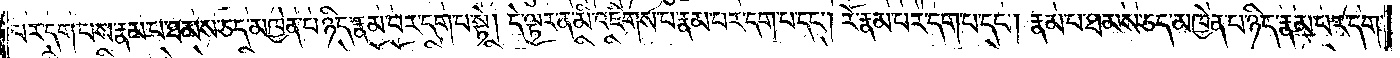པར་དག་པས་རྣམ་པ་ཐམས་ཅད་མཁྱེན་པ་ཉིད་རྣམ་པར་དག་པ་སྟེ། དེ་ལྟར་ན་མི་འཇིགས་པ་རྣམ་པར་དག་པ་དང༌། རོ་རྣམ་པར་དག་པ་དང༌། རྣམ་པ་ཐམས་ཅད་མཁྱེན་པ་ཉིད་རྣམ་པར་དག་
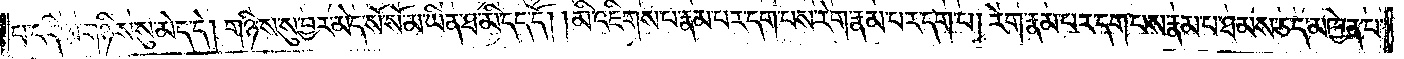པ་འདི་ལ་གཉིས་སུ་མེད་དེ། གཉིས་སུ་བྱར་མེད་སོ་སོ་མ་ཡིན་ཐ་མི་དད་དོ། །མི་འཇིགས་པ་རྣམ་པར་དག་པས་རེག་རྣམ་པར་དག་པ། རེག་རྣམ་པར་དག་པས་རྣམ་པ་ཐམས་ཅད་མཁྱེན་པ་
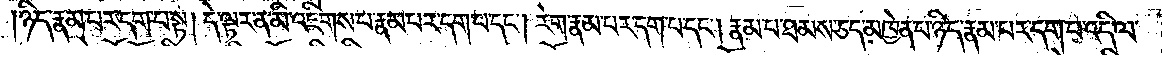ཉིད་རྣམ་པར་དག་པ་སྟེ། དེ་ལྟར་ན་མི་འཇིགས་པ་རྣམ་པར་དག་པ་དང༌། རེག་རྣམ་པར་དག་པ་དང༌། རྣམ་པ་ཐམས་ཅད་མཁྱེན་པ་ཉིད་རྣམ་པར་དག་པ་འདི་ལ་
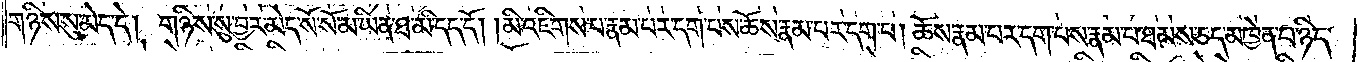གཉིས་སུ་མེད་དེ། གཉིས་སུ་བྱར་མེད་སོ་སོ་མ་ཡིན་ཐ་མ་དད་དོ། །མི་འཇིགས་པ་རྣམ་པར་དག་པས་ཆོས་རྣམ་པར་དག་པ། ཆོས་རྣམ་པར་དག་པས་རྣམ་པ་ཐམས་ཅད་མཁྱེན་པ་ཉིད་
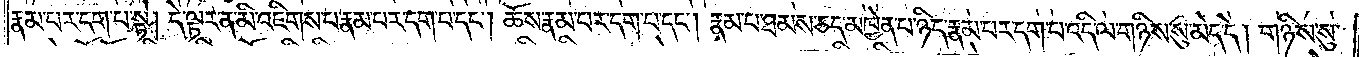རྣམ་པར་དག་པ་སྟེ། དེ་ལྟར་ན་མི་འཇིགས་པ་རྣམ་པར་དག་པ་དང༌། ཆོས་རྣམ་པར་དག་པ་དང༌། རྣམ་པ་ཐམས་ཅད་མཁྱེན་པ་ཉིད་རྣམ་པར་དག་པ་འདི་ལ་གཉིས་སུ་མེད་དེ། གཉིས་སུ་
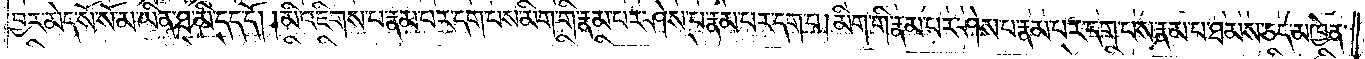བྱར་མེད་སོ་སོ་མ་ཡིན་ཐ་མི་དད་དོ། །མི་འཇིགས་པ་རྣམ་པར་དག་པས་མིག་གི་རྣམ་པར་ཤེས་པ་རྣམ་པར་དག་པ། མིག་གི་རྣམ་པར་ཤེས་པ་རྣམ་པར་དག་པས་རྣམ་པ་ཐམས་ཅད་མཁྱེན་
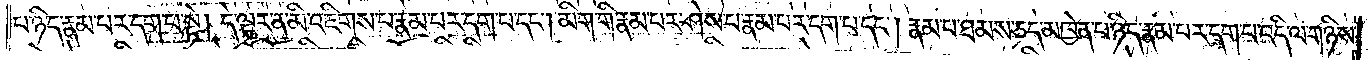པ་ཉིད་རྣམ་པར་དག་པ་སྟེ། དེ་ལྟར་ན་མི་འཇིགས་པ་རྣམ་པར་དག་པ་དང༌། མིག་གི་རྣམ་པར་ཤེས་པ་རྣམ་པར་དག་པ་དང༌། རྣམ་པ་ཐམས་ཅད་མཁྱེན་པ་ཉིད་རྣམ་པར་དག་པ་འདི་ལ་གཉིས་
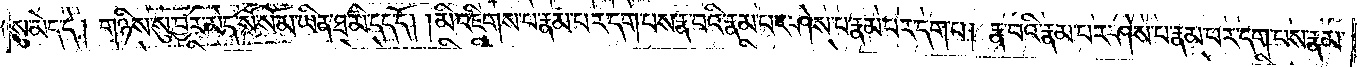སུ་མེད་དེ། གཉིས་སུ་བྱར་མེད་སོ་སོ་མ་ཡིན་ཐ་མི་དད་དོ། །མི་འཇིགས་པ་རྣམ་པར་དག་པས་རྣ་བའི་རྣམ་པར་ཤེས་པ་རྣམ་པར་དག་པ། རྣ་བའི་རྣམ་པར་ཤེས་པ་རྣམ་པར་དག་པས་རྣམ་
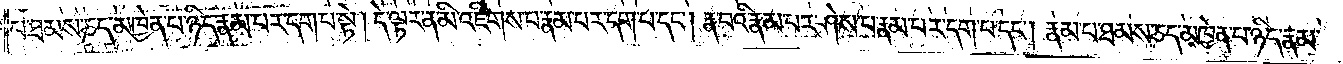པ་ཐམས་ཅད་མཁྱེན་པ་ཉིད་རྣམ་པར་དག་པ་སྟེ། དེ་ལྟར་ན་མི་འཇིགས་པ་རྣམ་པར་དག་པ་དང༌། རྣ་བའི་རྣམ་པར་ཤེས་པ་རྣམ་པར་དག་པ་དང༌། རྣམ་པ་ཐམས་ཅད་མཁྱེན་པ་ཉིད་རྣམ་
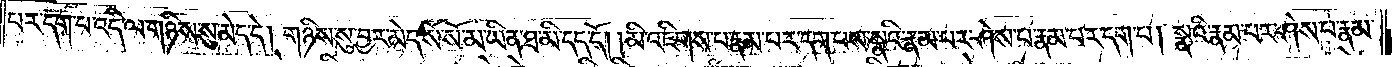པར་དག་པ་འདི་ལ་གཉིས་སུ་མེད་དེ། གཉིས་སུ་བྱར་མེད་སོ་སོ་མ་ཡིན་ཐ་མི་དད་དོ། །མི་འཇིགས་པ་རྣམ་པར་དག་པས་སྣའི་རྣམ་པར་ཤེས་པ་རྣམ་པར་དག་པ། སྣའི་རྣམ་པར་ཤེས་པ་རྣམ་
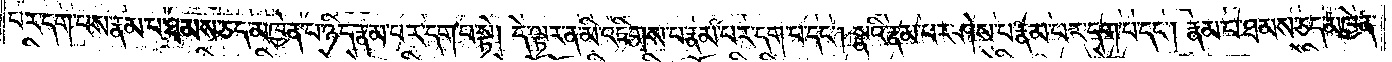པར་དག་པས་རྣམ་པ་ཐམས་ཅད་མཁྱེན་པ་ཉིད་རྣམ་པར་དག་པ་སྟེ། དེ་ལྟར་ན་མི་འཇིགས་པ་རྣམ་པར་དག་པ་དང༌། སྣའི་རྣམ་པར་ཤེས་པ་རྣམ་པར་དག་པ་དང༌། རྣམ་པ་ཐམས་ཅད་མཁྱེན་
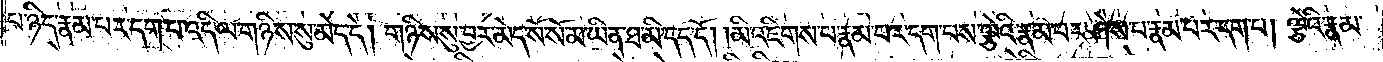པ་ཉིད་རྣམ་པར་དག་པ་འདི་ལ་གཉིས་སུ་མེད་དེ། གཉིས་སུ་བྱར་མེད་སོ་སོ་མ་ཡིན་ཐ་མི་དད་དོ། །མི་འཇིགས་པ་རྣམ་པར་དག་པས་ལྕེའི་རྣམ་པར་ཤེས་པ་རྣམ་པར་དག་པ། ལྕེའི་རྣམ་
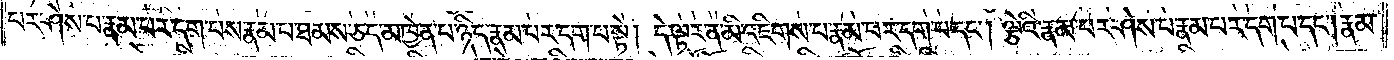པར་ཤེས་པ་རྣམ་པར་དག་པས་རྣམ་པ་ཐམས་ཅད་མཁྱེན་པ་ཉིད་རྣམ་པར་དག་པ་སྟེ། དེ་ལྟར་ན་མི་འཇིགས་པ་རྣམ་པར་དག་པ་དང༌། ལྕེའི་རྣམ་པར་ཤེས་པ་རྣམ་པར་དག་པ་དང༌། རྣམ་
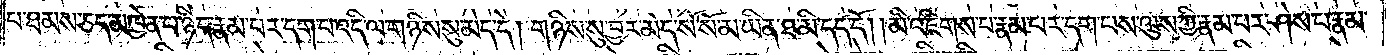པ་ཐམས་ཅད་མཁྱེན་པ་ཉིད་རྣམ་པར་དག་པ་འདི་ལ་གཉིས་སུ་མེད་དེ། གཉིས་སུ་བྱར་མེད་སོ་སོ་མ་ཡིན་ཐ་མི་དད་དོ། །མི་འཇིགས་པ་རྣམ་པར་དག་པས་ལུས་ཀྱི་རྣམ་པར་ཤེས་པ་རྣམ་
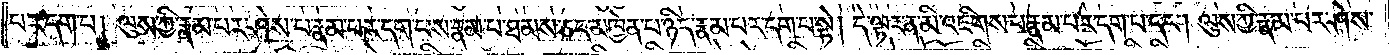པར་དག་པ། ལུས་ཀྱི་རྣམ་པར་ཤེས་པ་རྣམ་པར་དག་པས་རྣམ་པ་ཐམས་ཅད་མཁྱེན་པ་ཉིད་རྣམ་པར་དག་པ་སྟེ། དེ་ལྟར་ན་མི་འཇིགས་པ་རྣམ་པར་དག་པ་དང༌། ལུས་ཀྱི་རྣམ་པར་ཤེས་
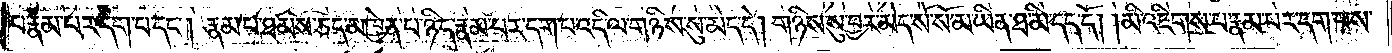པ་རྣམ་པར་དག་པ་དང༌། རྣམ་པ་ཐམས་ཅད་མཁྱེན་པ་ཉིད་རྣམ་པར་དག་པ་འདི་ལ་གཉིས་སུ་མེད་དེ། གཉིས་སུ་བྱར་མེད་སོ་སོ་མ་ཡིན་ཐ་མི་དད་དོ། །མི་འཇིགས་པ་རྣམ་པར་དག་པས་
